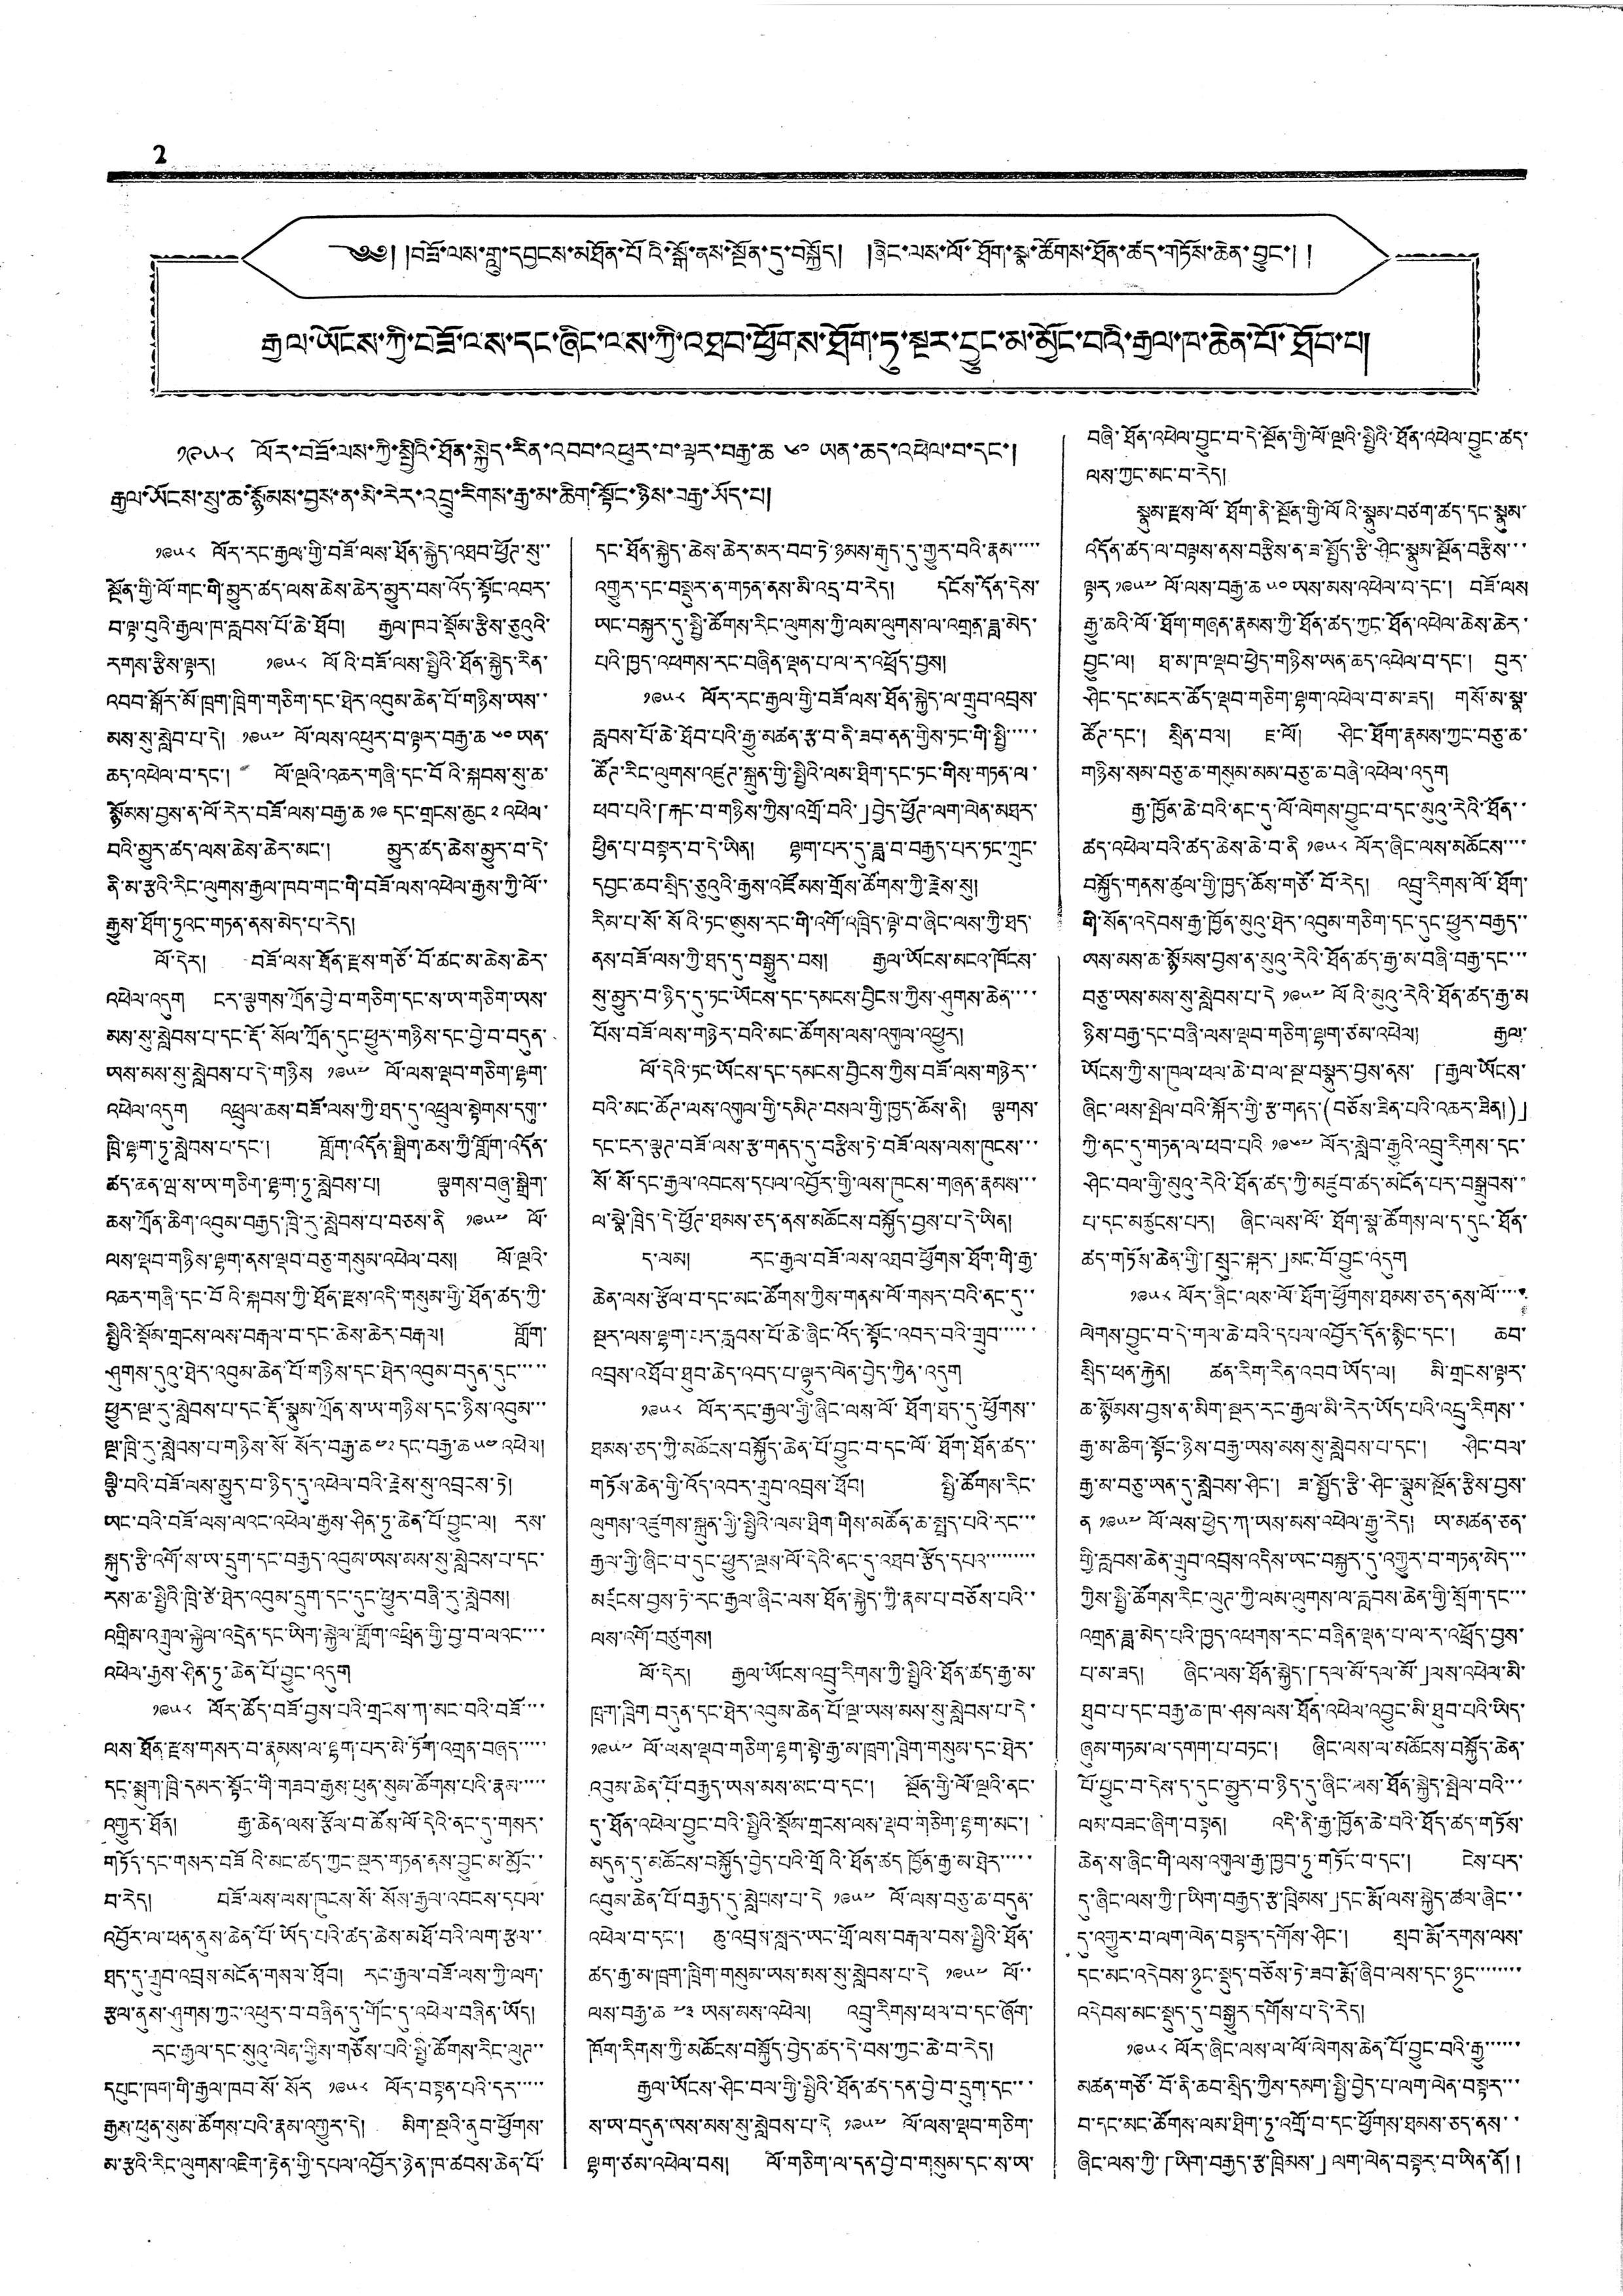2
༄༅། །བཟོ་ལས་གླུ་དབྱངས་མཐོན་པོའི་སྒོ་ནས་སྔོན་དུ་བསྐྱོད། །ཞིང་ལས་ལོ་ཐོག་སྣ་ཚོགས་ཐོན་ཚད་གཏོས་ཆེན་བྱུང་། །
རྒྱལ་ཡོངས་ཀྱི་བཟོ་ལས་དང་ཞིང་ལས་ཀྱི་འཐབ་ཕྱོགས་ཐོག་ཏུ་སྔར་བྱུང་མ་མྱོང་བའི་རྒྱལ་ཁ་ཆེན་པོ་ཐོབ་པ།
༡༩༥༨ ལོར་བཟོ་ལས་ཀྱི་སྤྱིའི་ཐོན་སྐྱེད་རིན་འབབ་འཕུར་བ་ལྟར་བརྒྱ་ཆ ༦༠ ཡན་ཆད་འཕེལ་བ་དང་།
རྒྱལ་ཡོངས་སུ་ཆ་སྙོམས་བྱས་ན་མི་རེར་འབྲུ་རིགས་རྒྱ་མ་ཆིག་སྟོང་ཉིས་བརྒྱ་ཡོད་པ།
༡༩༥༨ ལོར་རང་རྒྱལ་གྱི་བཟོ་ལས་ཐོན་སྐྱེད་འཐབ་ཕྱོཊ་སུ་་
སྔོན་གྱི་ལོ་གང་གི་མྱུར་ཚད་ལས་ཆེས་ཆེར་མྱུར་པས་འོད་སྟོང་འབར་
བ་ལྟ་བུའི་རྒྱལ་ཁ་རླབས་པོ་ཆེ་ཐོབ། རྒྱལ་ཁབ་སྡོམ་རྩིས་ཅུའུའི་
རགས་རྩིས་ལྟར། ༡༩༥༨ ལོའི་བཟོ་ལས་སྤྱིའི་ཐོན་སྐྱེད་རིན་
འབབ་སྒོར་མོ་ཁྲག་ཁྲིག་གཅིག་དང་ཐེར་འབུམ་ཆེན་པོ་གཉིས་ཡས་་
མས་སུ་སླེབ་པ་དེ། ༡༩༥༧ ལོ་ལས་འཕུར་བ་ལྟར་བརྒྱ་ཆ ༦༠ ཡན་
ཆད་འཕེལ་བ་དང་། ལོ་ལྔའི་འཆར་གཞི་དང་བོའི་སྐབས་སུ་ཆ་
སྙོམས་བྱས་ན་ལོ་རེར་བཟོ་ལས་བརྒྱ་ཆ ༡༩ དང་གྲངས་ཆུང ༢ འཕེལ་
བའི་མྱུར་ཚད་ལས་ཆེས་ཆེར་མང་། མྱུར་ཚད་ཆེས་མྱུར་བ་དེ་
ནི་མ་རྩའི་རིང་ལུགས་རྒྱལ་ཁབ་གང་གི་བཟོ་ལས་འཕེལ་རྒྱས་ཀྱི་ལོ་་
རྒྱུས་ཐོག་ཏུའང་གཏན་ནས་མེད་པ་རེད།
ལོ་དེར། བཟོ་ལས་ཐོན་རྫས་གཙོ་བོ་ཚང་མ་ཆེས་ཆེར་
འཕེལ་འདུག ངར་ལྕགས་ཀྲོན་བྱེ་བ་གཅིག་དང་ས་ཡ་གཅིག་ཡས་
མས་སུ་སླེབས་པ་དང་རྡོ་སོལ་ཀྲོན་དུང་ཕྱུར་གཉིས་དང་བྱེ་བ་བདུན་
ཡས་མས་སུ་སླེབས་པ་དེ་གཉིས ༡༩༥༧ ལོ་ལས་ལྡབ་གཅིག་ལྷག་
འཕེལ་འདུག འཕྲུལ་ཆས་བཟོ་ལས་ཀྱི་ཐད་དུ་འཕྲུལ་སྟེགས་དགུ་་
ཁྲི་ལྷག་ཏུ་སླེབས་པ་དང་། གློག་འདོན་སྒྲིག་ཆས་ཀྱི་གློག་འདོན་
ཚད་ཆན་ཝ་ས་ཡ་གཅིག་ལྷག་ཏུ་སླེབས་པ། ལྕགས་བཞུ་སྒྲིག་
ཆས་ཀྲོན་ཆིག་འབུམ་བརྒྱད་ཁྲི་རུ་སླེབས་པ་བཅས་ནི ༡༩༥༧ ལོ་
ལས་ལྡབ་གཉིས་ལྷག་ནས་ལྡབ་བཅུ་གསུམ་འཕེལ་བས། ལོ་ལྔའི་
འཆར་གཞི་དང་བོའི་སྐབས་ཀྱི་ཐོན་རྫས་འདི་གསུམ་གྱི་ཐོན་ཚད་ཀྱི་
སྤྱིའི་སྡོམ་གྲངས་ལས་བརྒལ་བ་དང་ཆེས་ཆེར་བརྒལ། གློག་
ཤུགས་དུའུ་ཐེར་འབུམ་ཆེན་པོ་གཉིས་དང་ཐེར་འབུམ་བདུན་དུང་་་་་
ཕྱུར་ལྔ་རུ་སླེབས་པ་དང་རྡོ་སྣུམ་ཀྲོན་ས་ཡ་གཉིས་དང་ཉིས་འབུམ་་་
ལྔ་ཁྲི་རུ་སླེབས་པ་གཉིས་སོ་སོར་བརྒྱ་ཆ ༤༢ དང་བརྒྱ་ཆ ༥༤ འཕེལ།
ལྕི་བའི་བཟོ་ལས་མྱུར་བ་ཉིད་དུ་འཕེལ་བའི་རྗེས་སུ་འབྲངས་ཏེ།
ཡང་བའི་བཟོ་ལས་ལའང་འཕེལ་རྒྱས་ཤིན་ཏུ་ཆེན་པོ་བྱུང་ལ། རས་
སྐུད་རྩི་འགོ་ས་ཡ་དྲུག་དང་བརྒྱད་འབུམ་ཡས་མས་སུ་སླེབས་པ་དང་
རས་ཆ་སྤྱིའི་ཁྲི་ཙེ་ཐེར་འབུམ་དྲུག་དང་དུང་ཕྱུར་བཞི་རུ་སླེབས།
འགྲིམ་འགྲུལ་སྐྱེལ་འདྲེན་དང་ཡིག་སྐྱེལ་གློག་འཕྲིན་གྱི་བྱ་བ་ལའང་་་་
འཕེལ་རྒྱས་ཤིན་ཏུ་ཆེན་པོ་བྱུང་འདུག
༡༩༥༨ ལོར་ཚོད་བཟོ་བྱས་པའི་གྲངས་ཀ་མང་བའི་བཟོ་་་་
ལས་ཐོན་རྫས་གསར་བ་རྣམས་ལ་ལྷག་པར་མེ་ཏོག་འགྲན་བཞད་་་་་
དང་སྨུག་ཁྲི་དམར་སྟོང་གི་གཟབ་རྒྱས་ཕུན་སུམ་ཚོགས་པའི་རྣམ་་་་་་
འགྱུར་ཐོན། རྒྱ་ཆེན་ལས་རྩོལ་བ་ཚོས་ལོ་དེའི་ནང་དུ་གསར་
གཏོད་དང་གསར་བཟོའི་མང་ཚད་ཀྱང་སྔར་གཏན་ནས་བྱུང་མ་མྱོང་་
བ་རེད། བཟོ་ལས་ལས་ཁུངས་སོ་སོས་རྒྱལ་འབངས་དཔལ་
འབྱོར་ལ་ཕན་ནུས་ཆེན་པོ་ཡོད་པའི་ཚད་ཆེས་མཐོ་བའི་ལག་རྩལ་་
ཐད་དུ་གྲུབ་འབྲས་མངོན་གསལ་ཐོབ། རང་རྒྱལ་བཟོ་ལས་ཀྱི་ལག་
རྩལ་ནུས་ཤུགས་ཀྱང་འཕུར་བ་བཞིན་དུ་གོང་དུ་འཕེལ་བཞིན་ཡོད།
རང་རྒྱལ་དང་སུའུ་ལེན་གྱིས་གཙོས་པའི་སྤྱི་ཚོགས་རིང་ལུཊ་་
དཔུང་ཁག་གི་རྒྱལ་ཁབ་སོ་སོར ༡༩༥༨ ལོར་བསྟན་པའི་དར་་་་་
རྒྱས་ཕུན་སུམ་ཚོགས་པའི་རྣམ་འགྱུར་དེ། མིག་སྔིའ་ནུབ་ཕྱོགས་
མ་རྩའི་རིང་ལུགས་འཇིག་རྟེན་གྱི་དཔལ་འབྱོར་ཉེན་ཁ་ཚབས་ཆེན་པོ་
དང་ཐོན་སྐྱེད་ཆེས་ཆེར་མར་བབ་ཏེ་ཉམས་རྒུད་དུ་གྱུར་བའི་རྣམ་་་་་
འགྱུར་དང་བསྡུར་ན་གཏན་ནས་མི་འདྲ་བ་རེད། དངོས་དོན་དེས་
ཡང་བསྐྱར་དུ་སྤྱི་ཚོགས་རིང་ལུགས་ཀྱི་ལམ་ལུགས་ལ་འགྲན་ཟླ་མེད་
པའི་ཁྱད་འཕགས་རང་བཞིན་ལྡན་པ་ལ་ར་འཕྲོད་བྱས།
༡༩༥༨ ལོར་རང་རྒྱལ་གྱི་བཟོ་ལས་ཐོན་སྐྱེད་ལ་གྲུབ་འབྲས་
རླབས་པོ་ཆེ་ཐོབ་པའི་རྒྱུ་མཚན་རྩ་བ་ནི་ཟབ་ནན་གྱིས་ཏང་གི་སྤྱི་་་་་
ཚོཊ་རིང་ལུགས་འཛུཊ་སྐྲུན་གྱི་སྤྱིའི་ལམ་ཐིག་དང་ཏང་གིས་གཏན་ལ་
ཕབ་པའི་「རྐང་བ་གཉིས་ཀྱིས་འགྲོ་བའི་」བྱེད་ཕྱོཊ་ལག་ལེན་མཐར་
ཕྱིན་པ་བསྟར་བ་དེ་ཡིན། ལྷག་པར་དུ་ཟླ་བ་བརྒྱད་པར་ཏང་ཀྲུང་
དབྱང་ཆབ་སྲིད་ཅུའུའི་རྒྱས་འཛོམས་གྲོས་ཚོགས་ཀྱི་རྗེས་སུ།
རིམ་པ་སོ་སོའི་ཏང་ཨུས་རང་གི་འགོ་འཁྲིད་ལྟེ་བ་ཞིང་ལས་ཀྱི་ཐད་
ནས་བཟོ་ལས་ཀྱི་ཐད་དུ་བསྒྱུར་བས། རྒྱལ་ཡོངས་མངའ་ཁོངས་
སུ་མྱུར་བ་ཉིད་དུ་ཏང་ཡོངས་དང་དམངས་བྱིངས་ཀྱིས་ཤུགས་ཆེན་་་་
པོས་བཟོ་ལས་གཉེར་བའི་མང་ཚོགས་ལས་འགུལ་འཕྱུར།
ལོ་དེའི་ཏང་ཡོངས་དང་དམངས་བྱིངས་ཀྱིས་བཟོ་ལས་གཉེར་་
བའི་མང་ཚོཊ་ལས་འགུལ་གྱི་དམིཊ་བསལ་གྱི་ཁྱད་ཆོས་ནི། ལྕགས་
དང་ངར་ལྕཊ་བཟོ་ལས་རྩ་གནད་དུ་བརྩིས་ཏེ་བཟོ་ལས་ལས་ཁུངས་་་
སོ་སོ་དང་རྒྱལ་འབངས་དཔལ་འབྱོར་གྱི་ལས་ཁུངས་གཞན་རྣམས་་་
ལ་སྣེ་ཁྲིད་དེ་ཕྱོཊ་ཐམས་ཅད་ནས་མཆོངས་བསྐྱོད་བྱས་པ་དེ་ཡིན།
ད་ལམ། རང་རྒྱལ་བཟོ་ལས་འཐབ་ཕྱོགས་ཐོག་གི་རྒྱ་
ཆེན་ལས་རྩོལ་བ་དང་མང་ཚོགས་ཀྱིས་གནམ་ལོ་གསར་བའི་ནང་དུ་་
སྔར་ལས་ལྷག་པར་རླབས་པོ་ཆེ་ཞིང་འོད་སྟོང་འབར་བའི་གྲུབ་་་་་་
འབྲས་འཐོབ་ཐུབ་ཆེད་འབད་པ་ལྷུར་ལེབ་བྱེད་ཀྱིན་འདུག
༡༩༥༨ ལོར་རང་རྒྱལ་གྱི་ཞིང་ལས་ལོ་ཐོག་ཐད་དུ་ཕྱོགས་་
ཐམས་ཅད་ཀྱི་མཆོངས་བསྐྱོད་ཆེན་པོ་བྱུང་བ་དང་ལོ་ཐོག་ཐོན་ཚད་་
གཏོས་ཆེན་གྱི་འོད་འབར་གྲུབ་འབྲས་ཐོབ། སྤྱི་ཚོགས་རིང་
ལུགས་འཛུགས་སྐྲུན་གྱི་སྤྱིའི་ལམ་ཐིག་གིས་མཚོན་ཆ་སྤྲད་པའི་རང་་་
རྒྱལ་གྱི་ཞིང་བ་དུང་ཕྱུར་ལྔས་ལོ་དེའི་ནང་དུ་འཐབ་རྩོད་དཔའ་་་་་་་་་་
མཛངས་བྱས་ཏེ་རང་རྒྱལ་ཞིང་ལས་ཐོན་སྐྱེད་ཀྱི་རྣམ་པ་བཅོས་པའི་་
ལས་འགོ་བཙུགས།
ལོ་དེར། རྒྱལ་ཡོངས་འབྲུ་རིགས་ཀྱི་སྤྱིའི་ཐོན་ཚད་རྒྱ་མ་
ཁྲག་ཁྲིག་བདུན་དང་ཐེར་འབུམ་ཆེན་པོ་ལྔ་ཡས་མས་སུ་སླེབས་པ་དེ་
༡༩༥༧ ལོ་ལས་ལྡབ་གཅིག་ལྷག་སྟེ་རྒྱ་མ་ཁྲག་ཁྲིག་གསུམ་དང་ཐེར་
འབུམ་ཆེན་པོ་བརྒྱད་ཡས་མས་མང་བ་དང་། སྔོན་གྱི་ལོ་ལྔའི་ནང་
དུ་ཐོན་འཕེལ་བྱུང་བའི་སྤྱིའི་སྡོམ་གྲངས་ལས་ལྡབ་གཅིག་ལྷག་མང་།
མདུན་དུ་མཆོངས་བསྐྱོད་བྱེད་པའི་གྲོའི་ཐོན་ཚད ཁྱོན་རྒྱ་མ་ཐེར་་་་་
འབུམ་ཆེན་པོ་བརྒྱད་དུ་སླེབས་པ་དེ ༡༩༥༧ ལོ་ལས་བཅུ་ཆ་བདུན་
འཕེལ་བ་དང་། ཆུ་འབྲས་སླར་ཡང་གྲོ་ལས་བརྒལ་བས་སྤྱིའི་ཐོན་
ཚད་རྒྱ་མ་ཁྲག་ཁྲིག་གསུམ་ཡས་མས་སུ་སླེབས་པ་དེ ༡༩༥༧ ལོ་་
ལས་བརྒྱ་ཆ ༧༣ ཡས་མས་འཕེལ། འབྲུ་རིགས་ཕལ་བ་དང་ཞོག་
ཁོག་རིགས་ཀྱི་མཆོངས་བསྐྱོད་བྱེད་ཚད་དེ་བས་ཀྱང་ཆེ་བ་རེད།
རྒྱལ་ཡོངས་ཤིང་བལ་གྱི་སྤྱིའི་ཐོན་ཚད་དན་བྱེ་བ་དྲུག་དང་་་
ས་ཡ་བདུན་ཡས་མས་སུ་སླེབས་པ་དེ ༡༩༥༧ ལོ་ལས་ལྡབ་གཅིག་
ལྷག་ཙམ་འཕེལ་བས། ལོ་གཅིག་ལ་དན་བྱེད་བ་གསུམ་དང་ས་ཡ་
བཞི་ཐོན་འཕེལ་བྱུང་བ་དེ་སྔོན་གྱི་ལོ་ལྔའི་སྤྱིའི་ཐོན་འཕེལ་བྱུང་ཚད་
ལས་ཀྱང་མང་བ་རེད།
སྣུམ་རྫས་ལོ་ཐོག་ནི་སྔོན་གྱི་ལོའི་སྣུམ་བཙག་ཚད་དང་སྣུམ་
འདོན་ཚད་ལ་བལྟས་ནས་བརྩིས་ན་ཟ་སྤྱོད་རྩི་ཤིང་སྣུམ་སྔོན་བརྩིས་་་
ལྟར ༡༩༥༧ ལོ་ལས་བརྒྱ་ཆ ༥༠ ཡས་མས་འཕེལ་བ་དང་། བཟོ་ལས
རྒྱུ་ཆའི་ལོ་ཐོག་གཞན་རྣམས་ཀྱི་ཐོན་ཚད་ཀྱང་ཐོན་འཕེལ་ཆེས་ཆེར་
བྱུང་ལ། ཐ་མ་ཁ་ལྡབ་ཕྱེད་གཉིས་ཡན་ཆད་འཕེལ་བ་དང་། བུར་
ཤིང་དང་མངར་ཚོད་ལྡབ་གཅིག་ལྷག་འཕེལ་བ་མ་ཟད། གསོ་མ་སྣ་
ཚོཊ་དང་། སྲིན་བལ། ཇ་ལོ། ཤིང་ཐོག་རྣམས་ཀྱང་བཅུ་ཆ་
གཉིས་སམ་བཅུ་ཆ་གསུམ་མམ་བཅུ་ཆ་བཞི་འཕེལ་འདུག
རྒྱ་ཁྱོན་ཆེ་བའི་ནང་དུ་ལོ་ལེགས་བྱུང་བ་དང་མུའུ་རེའི་ཐོན་་
ཚད་འཕེལ་བའི་ཚད་ཆེས་ཆེ་བ་ནི ༡༩༥༨ ལོར་ཞིང་ལས་མཆོངས་་་་
བསྐྱོད་གནས་ཚུལ་གྱི་ཁྱད་ཆོས་གཙོ་བོ་རེད། འབྲུ་རིགས་ལོ་ཐོག་
གི་སོན་འདེབས་རྒྱ་ཁྱོན་མུའུ་ཐེར་འབུམ་གཅིག་དང་དུང་ཕྱུར་བརྒྱད་་
ཡས་མས་ཆ་སྙོམས་བྱས་ན་མུའུ་རེའི་ཐོན་ཚད་རྒྱ་མ་བཞི་བརྒྱ་དང་་་
བཅུ་ཡས་མས་སུ་སླེབས་པ་དེ ༡༩༥༧ ལོའི་མུའུ་རེའི་ཐོན་ཚད་རྒྱ་མ
ཉིས་བརྒྱ་དང་བཞི་ལས་ལྡབ་གཅིག་ལྷག་ཙམ་འཕེལ། རྒྱལ་
ཡོངས་ཀྱི་ས་ཁུལ་ཕལ་ཆེ་བ་ལ་སྔ་བསྣུར་བྱས་ནས་ 「རྒྱལ་ཡོངས་
ཞིང་ལས་སྤེལ་བའི་སྐོར་གྱི་རྩ་གནད་(བཅོས་ཟིན་པའི་འཆར་ཟིན།)」
ཀྱི་ནང་དུ་གཏན་ལ་ཕབ་པའི ༡༩༦༧ ལོར་སླེབ་རྒྱུའི་འབྲུ་རིགས་དང་
ཤིང་བལ་གྱི་མུའུ་རེའི་ཐོན་ཚད་ཀྱི་མཛུབ་ཚད་མངོན་པར་བསྒྲུབས་་
པ་དང་མཚུངས་པར། ཞིང་ལས་ལོ་ཐོག་སྣ་ཚོགས་ལ་ད་དུང་ཐོན་
ཚད་གཏོས་ཆེན་གྱི་「སྲུང་སྐར་」མང་བོ་བྱུང་འདུག
༡༩༥༨ ལོར་ཞིང་ལས་ལོ་ཐོག་ཕྱོགས་ཐམས་ཅད་ནས་ལོ་་་་་
ལེགས་བྱུང་བ་དེ་གལ་ཆེ་བའི་དཔལ་འབྱོར་དོན་སྙིང་དང་། ཆབ་
སྲིད་ཕན་རྐྱེན། ཚན་རིག་རིན་འབབ་ཡོད་ལ། མི་གྲངས་ལྟར་
ཆ་སྙོམས་བྱས་ན་མིག་སྔར་རང་རྒྱལ་མི་རེར་ཡོད་པའི་འབྲུ་རིགས་་
རྒྱ་མ་ཆིག་སྟོང་ཉིས་བརྒྱ་ཡས་མས་སུ་སླེབས་པ་དང་། ཤིང་བལ་
རྒྱ་མ་བཅུ་ཡན་དུ་སླེབས་ཤིང་། ཟ་སྤྱོད་རྩི་ཤིང་སྣུམ་སྔོན་རྩིས་བྱས་
ན ༡༩༥༧ ལོ་ལས་ཕྱེད་ཀ་ཡས་མས་འཕེལ་རྒྱུ་རེད། ཡ་མཚན་ཅན་
གྱི་རླབས་ཆེན་གྲུབ་འབྲས་འདིས་ཡང་བསྐྱར་དུ་འགྱུར་བ་གཏན་མེད་་་
ཀྱིས་སྤྱི་ཚོགས་རིང་ལུཊ་ལམ་ལུགས་ལ་རླབས་ཆེན་གྱི་སྲོག་དང་་་
འགྲན་ཟླ་མེད་པའི་ཁྱད་འཕགས་རང་བཞིན་ལྡན་པ་ལ་ར་འཕྲོད་བྱས་
པ་མ་ཟད། ཞིང་ལས་ཐོན་སྐྱེད་「དལ་མོ་དལ་མོ་」ལས་འཕེལ་མི་
ཐུབ་པ་དང་བརྒྱ་ཆ་ཁ་ཤས་ལས་ཐོན་འཕེལ་འབྱུང་མི་ཐུབ་པའི་ཡིད་
ཞུམ་གཏམ་ལ་དགག་པ་བཏང་། ཞིང་ལས་ལ་མཆོངས་བསྐྱོད་ཆེན་
པོ་བྱུང་བ་དེས་ད་དུང་མྱུར་བ་ཉིད་དུ་ཞིང་ལས་ཐོན་སྐྱེད་སྤེལ་བའི་་་
ལམ་བཟང་ཞིག་བསྟན། འདི་ནི་རྒྱ་ཁྱོན་ཆེ་བའི་ཐོད་ཚད་གཏོས་
ཆེན་ས་ཞིང་གི་ལས་འགུལ་རྒྱ་ཁྱབ་ཏུ་གཏོང་བ་དང་། ངེས་པར་
དུ་ཞིང་ལས་ཀྱི་「ཡིག་བརྒྱད་རྩ་ཁྲིམས་」དང་རྨོ་ལས་སྐྱེད་ཚལ་ཞིང་་
དུ་འགྱུར་བ་ལག་ལེན་བསྟར་དགོས་ཤིང་། སྲབ་རྨོ་རགས་ལས་
དང་མང་འདེབས་ཉུང་སྡུད་བཅོས་ཏེ་ཟབ་རྨོ་ཞིབ་ལས་དང་ཉུང་་་་་་་་
འདེབས་མང་སྡུད་དུ་བསྒྱུར་དགོས་པ་དེ་རེད།
༡༩༥༨ ལོར་ཞིང་ལས་ལ་ལོ་ལེགས་ཆེན་པོ་བྱུང་བའི་རྒྱུ་་་་་་
མཚན་གཙོ་བོ་ནི་ཆབ་སྲིད་ཀྱིས་དམག་སྤྱི་བྱེད་པ་ལག་ལེན་བསྟར་་་
བ་དང་མང་ཚོགས་ལམ་ཐིག་ཏུ་འགྲོ་བ་དང་ཕྱོགས་ཐམས་ཅད་ནས་་
ཞིང་ལས་ཀྱི་「ཡིག་བརྒྱད་རྩ་ཁྲིམས་」ལག་ལེན་བསྟར་བ་ཡིན་ནོ། །
